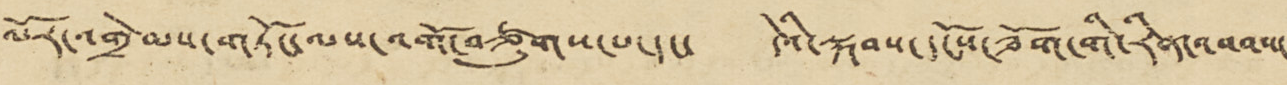ལོར་འགྲེམས་གཏོང་ལས་འགོ་བཙུགས་པ་དང་ དེའི་སྐབས་དངོས་ཟོག་གི་རིན་འབབས་
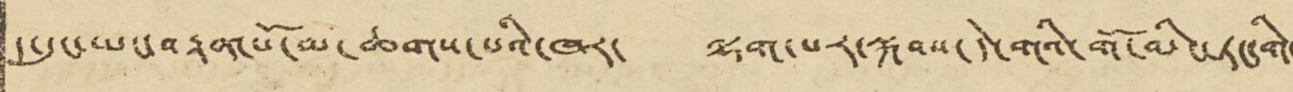ད་དུང་ཡང་བརྟན་པོ་མ་ཆགས་པའི་ཁར་ ལྷག་པར་སྐབས་དེ་གའི་གོ་མིང་ཏང་གི་
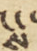ས
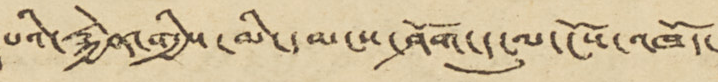པའི་རྐྱེན་གྱིས་མི་དམངས་ཤོག་དངུལ་ངོས་འཁོད་་་
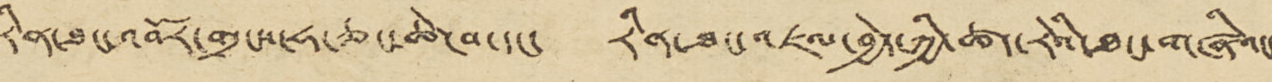རིན་ཐང་འབོར་གྲངས་ཧ་ཅང་ཆེ་བ་དང་ རིན་ཐང་འཇལ་བྱེད་ཀྱི་ཚད་རེའི་ཐང་གཞིའང་
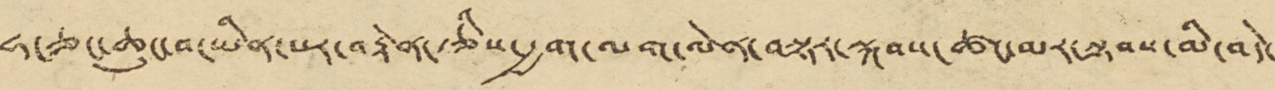ཧ་ཅང་ཆུང་བ་ཡིན་པར་བརྟེན་རྩིས་རྒྱག་ལག་ལེན་བསྟར་སྐབས་ཚང་མར་ལྟབས་མི་བདེ་
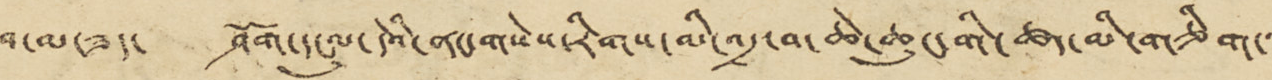བ་མ་ཟད་ ཤོག་དངུལ་དེའི་གསེས་རིགས་མི་འདྲ་བ་ཆེ་ཆུང་གི་ཚད་མི་གཅིག་་་
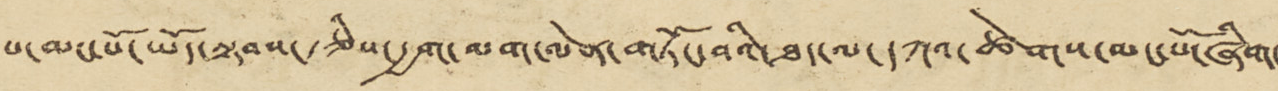པ་མང་པོ་ཡོད་སྟབས་རྩིས་རྒྱག་ལག་ལེན་གཏོང་བའི་ཐད་ལ་དཀའ་ཚེགས་མང་པོ་ཞིག་
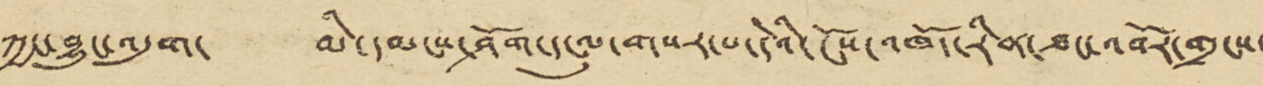ཀྱང་བྱུང་འདུག་ མི་དམངས་ཤོག་དངུལ་གསར་པ་དེའི་ངོས་འཁོད་རིན་ཐང་འབོར་གྲངས་
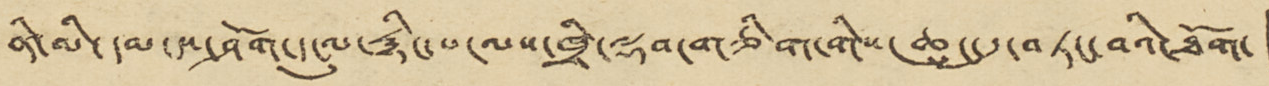ནི་མི་དམངས་ཤོག་དངུལ་རྙིང་པ་ལས་ཁྲི་ལྡབ་གཅིག་གིས་ཆུང་དུ་བཏང་བའི་ཐོག་ །
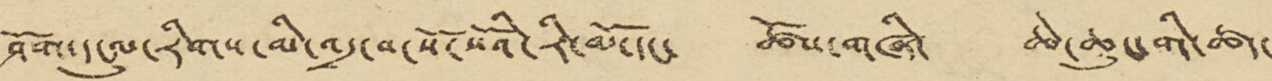ཤོག་དངུལ་རིགས་མི་འདྲ་བ་སོ་སོའི་རི་མོ་དང་ ཚོས་གཞི་ ཆེ་ཆུང་གི་ཚད་
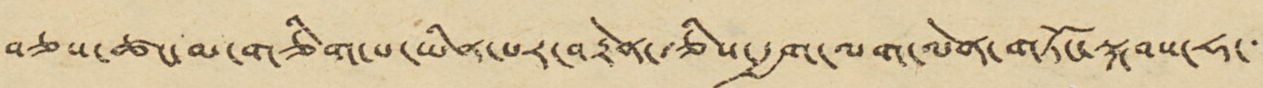བཅས་ཚང་མ་གཅིག་པ་ཡིན་པར་བརྟེན་རྩིས་རྒྱག་ལག་ལེན་གཏོང་སྐབས་ཧ་་་་
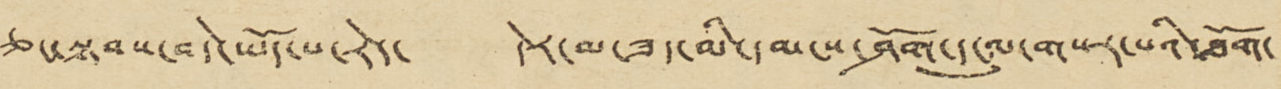ཅང་སྟབས་བདེ་ཡོད་པ་རེད་ དེར་མ་ཟད་མི་དམངས་ཤོག་དངུལ་གསར་པའི་ཐོག་
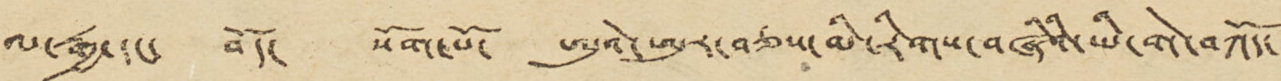ལ་རྒྱ་དང་ བོད་ སོག་པོ་ ཨུའེ་ཨུར་བཅས་མི་རིགས་བཞིའི་ཡི་གེ་བཀོད་
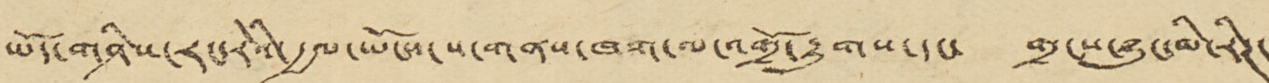ཡོད་གཤིས་རང་རེའི་རྒྱལ་ཡོངས་ས་གནས་ཁག་ལ་འགྲོ་རྒྱུགས་དང་ གྲངས་ཉུང་མི་རིཊ་
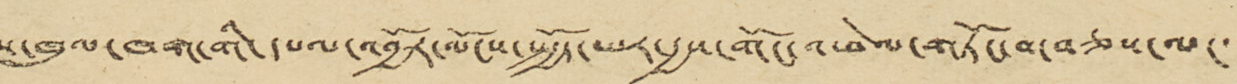ས་ཁུལ་ཁག་གི་དཔལ་འབྱོར་ལོངས་སྤྱོད་ཡར་རྒྱས་གོང་འཕེལ་གཏོང་བ་བཅས་ལ་་་་
